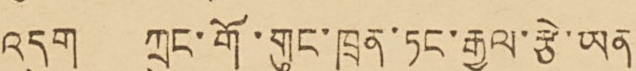འདུག ཀྲུང་གོ་གུང་ཁྲན་ཏང་རྒྱལ་རྩེ་ཡན་་
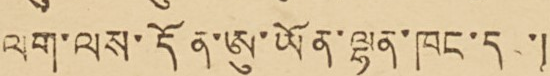ལག་ནས་དོན་ཨུ་ཡོན་ལྷན་ཁང་དང་།
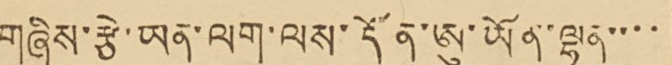གཞིས་རྩེ་ཡན་ལག་ལས་དོན་ཨུ་ཡོན་ལྷན་་་་
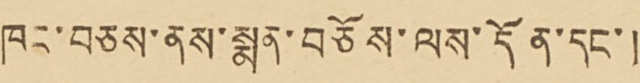ཁང་བཅས་ནས་སྨན་བཅོས་ལས་དོན་དང་།
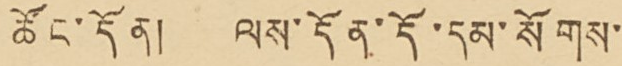ཚོང་དོན། ལས་དོན་དོ་དམ་སོགས་་
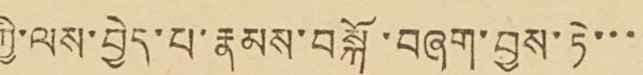ཀྱི་ལས་བྱེད་པ་རྣམས་བསྐོ་བཞག་བྱས་ཏེ་་་་
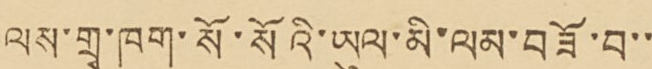ལས་གྲྭ་ཁག་སོ་སོའི་ཡུལ་མི་ལམ་བཟོ་བ་་་
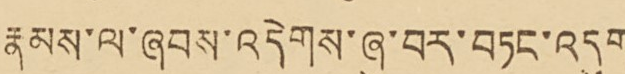རྣམས་ལ་ཞབས་འདེགས་ཞུ་བར་བཏང་འདུག
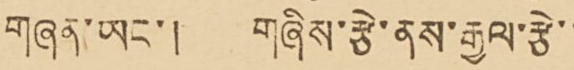གཞན་ཡང་། གཞིས་རྩེ་ནས་རྒྱལ་རྩེ་་་
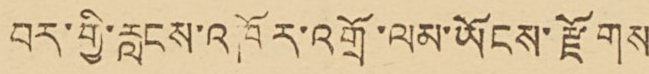བར་གྱི་རླངས་འཁོར་འགྲོ་ལམ་ཡོངས་རྫོགས་
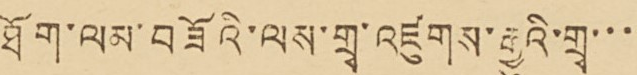ཐོག་ལམ་བཟོའི་ལས་གྲྭ་འཛུགས་རྒྱུའི་གྲྭ་་་་
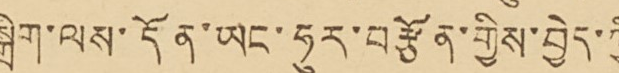སྒྲིག་ལས་དོན་ཡང་ཧུར་བརྩོན་གྱིས་བྱེད་ཀྱི་
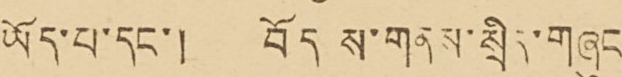ཡོད་པ་དང་། བོད ས་གནས་སྲིད་གཞུང་་
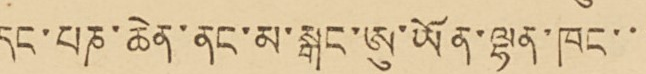དང་པཎ་ཆེན་ནང་མ་སྒང་ཨུ་ཡོན་ལྷན་ཁང་་་
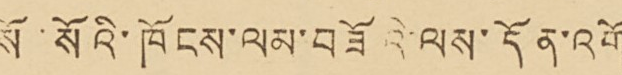སོ་སོའི་ཁོངས་ལམ་བཟོའི་ལས་དོན་འགོ་
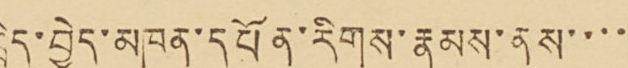ཁྲིད་བྱེད་མཁན་དཔོན་རིགས་རྣམས་ནས་་་་་
